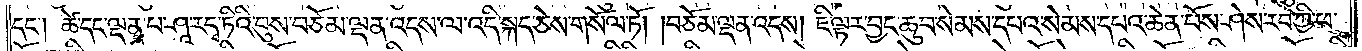དང༌། ཚེ་དང་ལྡན་པ་ཤཱ་ར་དྭ་ཏིའི་བུས་བཅོམ་ལྡན་འདས་ལ་འདི་སྐད་ཅེས་གསོལ་ཏོ། །བཅོམ་ལྡན་འདས། ཇི་ལྟར་བྱང་ཆུབ་སེམས་དཔའ་སེམས་དཔའ་ཆེན་པོས་ཤེས་རབ་ཀྱི་ཕ་
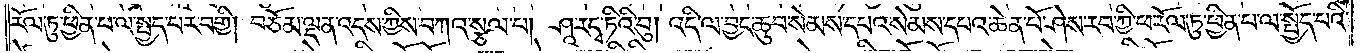རོལ་ཏུ་ཕྱིན་པ་ལ་སྤྱད་པར་བགྱི། བཅོམ་ལྡན་འདས་ཀྱིས་བཀའ་སྩལ་པ། ཤཱ་ར་དྭ་ཏིའི་བུ། འདི་ལ་བྱང་ཆུབ་སེམས་དཔའ་སེམས་དཔའ་ཆེན་པོ་ཤེས་རབ་ཀྱི་ཕ་རོལ་ཏུ་ཕྱིན་པ་ལ་སྤྱོད་པའི་
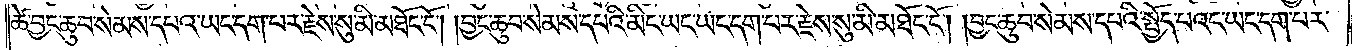ཚེ་བྱང་ཆུབ་སེམས་དཔའ་ཡང་དག་པར་རྗེས་སུ་མི་མཐོང་ངོ༌། །བྱང་ཆུབ་སེམས་དཔའི་མིང་ཡང་ཡང་དག་པར་རྗེས་སུ་མི་མཐོང་ངོ༌། །བྱང་ཆུབ་སེམས་དཔའི་སྤྱོད་པའང་ཡང་དག་པར་
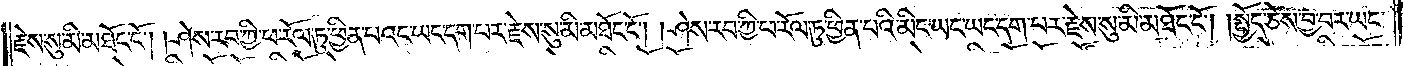རྗེས་སུ་མི་མཐོང་ངོ༌། །ཤེས་རབ་ཀྱི་ཕ་རོལ་ཏུ་ཕྱིན་པའང་ཡང་དག་པར་རྗེས་སུ་མི་མཐོང་ངོ༌། །ཤེས་རབ་ཀྱི་ཕ་རོལ་ཏུ་ཕྱིན་པའི་མིང་ཡང་ཡང་དག་པར་རྗེས་སུ་མི་མཐོང་ངོ༌། །སྤྱོད་ཅེས་བྱ་བར་ཡང་
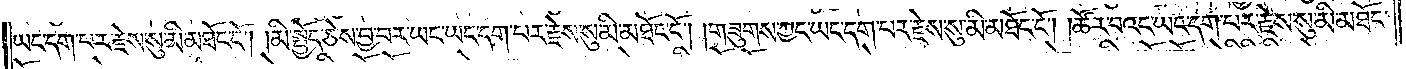ཡང་དག་པར་རྗེས་སུ་མི་མཐོང་ངོ༌། །མི་སྤྱོད་ཅེས་བྱ་བར་ཡང་ཡང་དག་པར་རྗེས་སུ་མི་མཐོང་ངོ༌། །གཟུགས་ཀྱང་ཡང་དག་པར་རྗེས་སུ་མི་མཐོང་ངོ༌། །ཚོར་བའང་ཡང་དག་པར་རྗེས་སུ་མི་མཐོང་
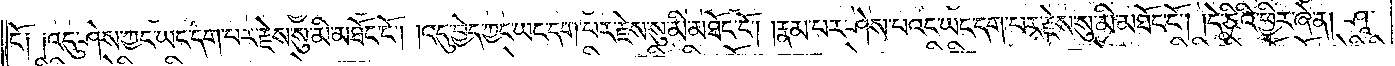ངོ༑ ༑འདུ་ཤེས་ཀྱང་ཡང་དག་པར་རྗེས་སུ་མི་མཐོང་ངོ༌། །འདུ་བྱེད་ཀྱང་ཡང་དག་པར་རྗེས་སུ་མི་མཐོང་ངོ༌། །རྣམ་པར་ཤེས་པའང་ཡང་དག་པར་རྗེས་སུ་མི་མཐོང་ངོ༌། །དེ་ཅིའི་ཕྱིར་ཞེ་ན། ཤཱ་
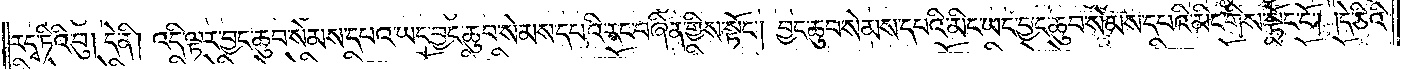ར་དྭ་ཏིའི་བུ། དེ་ནི། འདི་ལྟར་བྱང་ཆུབ་སེམས་དཔའ་ཡང་བྱང་ཆུབ་སེམས་དཔའི་རང་བཞིན་གྱིས་སྟོང༌། བྱང་ཆུབ་སེམས་དཔའི་མིང་ཡང་བྱང་ཆུབ་སེམས་དཔའི་མིང་གིས་སྟོང་ངོ༌། །དེ་ཅིའི་
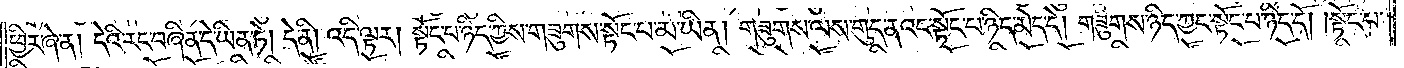ཕྱིར་ཞེ་ན། དེའི་རང་བཞིན་དེ་ཡིན་ཏེ། དེ་ནི། འདི་ལྟར། སྟོང་པ་ཉིད་ཀྱིས་གཟུགས་སྟོང་པ་མ་ཡིན། གཟུགས་ལས་གུད་ནའང་སྟོང་པ་ཉིད་མེད་དེ། གཟུགས་ཉིད་ཀྱང་སྟོང་པ་ཉིད་དོ། །སྟོང་པ་
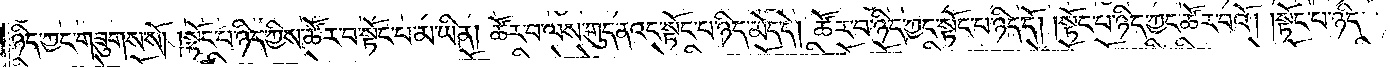ཉིད་ཀྱང་གཟུགས་སོ། །སྟོང་པ་ཉིད་ཀྱིས་ཚོར་བ་སྟོང་པ་མ་ཡིན། ཚོར་བ་ལས་གུད་ནའང་སྟོང་པ་ཉིད་མེད་དེ། ཚོར་བ་ཉིད་ཀྱང་སྟོང་པ་ཉིད་དོ། །སྟོང་པ་ཉིད་ཀྱང་ཚོར་བའོ། །སྟོང་པ་ཉིད་
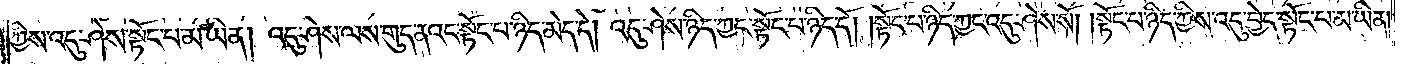ཀྱིས་འདུ་ཤེས་སྟོང་པ་མ་ཡིན། འདུ་ཤེས་ལས་གུད་ནའང་སྟོང་པ་ཉིད་མེད་དེ། འདུ་ཤེས་ཉིད་ཀྱང་སྟོང་པ་ཉིད་དོ། །སྟོང་པ་ཉིད་ཀྱང་འདུ་ཤེས་སོ། །སྟོང་པ་ཉིད་ཀྱིས་འདུ་བྱེད་སྟོང་པ་མ་ཡིན།
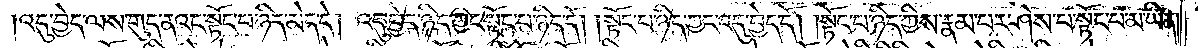འདུ་བྱེད་ལས་གུད་ནའང་སྟོང་པ་ཉིད་མེད་དེ། འདུ་བྱེད་ཉིད་ཀྱང་སྟོང་པ་ཉིད་དོ། །སྟོང་པ་ཉིད་ཀྱང་འདུ་བྱེད་དོ། །སྟོང་པ་ཉིད་ཀྱིས་རྣམ་པར་ཤེས་པ་སྟོང་པ་མ་ཡིན།
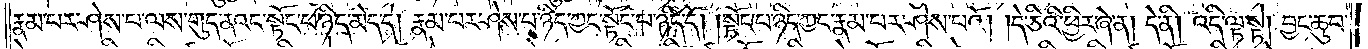རྣམ་པར་ཤེས་པ་ལས་གུད་ནའང་སྟོང་པ་ཉིད་མེད་དེ། རྣམ་པར་ཤེས་པ་ཉིད་ཀྱང་སྟོང་པ་ཉིད་དོ། །སྟོང་པ་ཉིད་ཀྱང་རྣམ་པར་ཤེས་པའོ། །དེ་ཅིའི་ཕྱིར་ཞེ་ན། དེ་ནི། འདི་ལྟ་སྟེ། བྱང་ཆུབ་
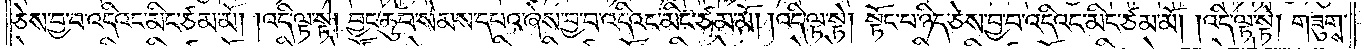ཅེས་བྱ་བ་འདིའང་མིང་ཙམ་མོ། །འདི་ལྟ་སྟེ། བྱང་ཆུབ་སེམས་དཔའ་ཞེས་བྱ་བ་འདིའང་མིང་ཙམ་མོ། །འདི་ལྟ་སྟེ། སྟོང་པ་ཉིད་ཅེས་བྱ་བ་འདིའང་མིང་ཙམ་མོ། །འདི་ལྟ་སྟེ། གཟུགས་
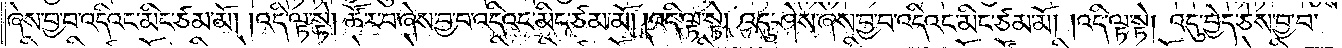ཞེས་བྱ་བ་འདིའང་མིང་ཙམ་མོ། །འདི་ལྟ་སྟེ། ཚོར་བ་ཞེས་བྱ་བ་འདིའང་མིང་ཙམ་མོ། །འདི་ལྟ་སྟེ། འདུ་ཤེས་ཞེས་བྱ་བ་འདིའང་མིང་ཙམ་མོ། །འདི་ལྟ་སྟེ། འདུ་བྱེད་ཅེས་བྱ་བ་
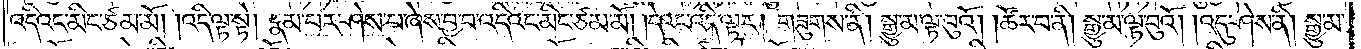འདིའང་མིང་ཙམ་མོ། །འདི་ལྟ་སྟེ། རྣམ་པར་ཤེས་པ་ཞེས་བྱ་བ་འདིའང་མིང་ཙམ་མོ། །དེའང་འདི་ལྟར། གཟུགས་ནི། སྒྱུ་མ་ལྟ་བུའོ། །ཚོར་བ་ནི། སྒྱུ་མ་ལྟ་བུའོ། །འདུ་ཤེས་ནི། སྒྱུ་མ་
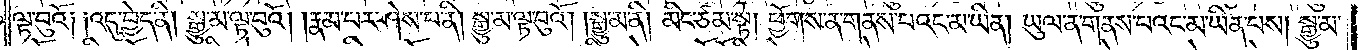ལྟ་བུའོ༑ ༑འདུ་བྱེད་ནི། སྒྱུ་མ་ལྟ་བུའོ། །རྣམ་པར་ཤེས་པ་ནི། སྒྱུ་མ་ལྟ་བུའོ། །སྒྱུ་མ་ནི། མིང་ཙམ་སྟེ། ཕྱོགས་ན་གནས་པའང་མ་ཡིན། ཡུལ་ན་གནས་པའང་མ་ཡིན་པས། སྒྱུ་མ་
